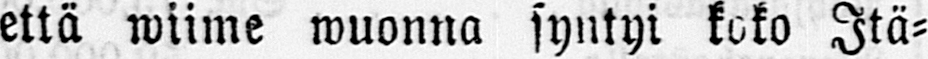että wiime wuonna syntyi koko Itä-
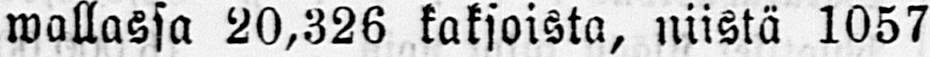wallassa 20,326 kakjoista, niistä 1057
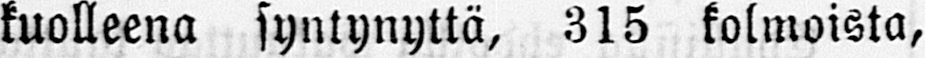kuolleena syntynyttä, 315 kolmoista,
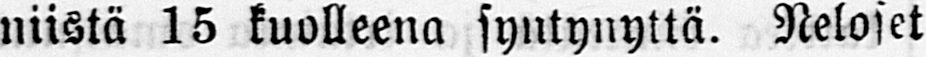niistä 15 kuolleena syntynyttä. Neloset
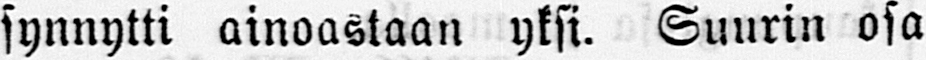synnytti ainoastaan yksi. Suurin osa
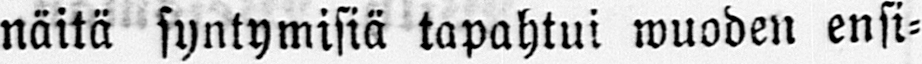näitä syntymisiä tapahtui wuoden ensi-
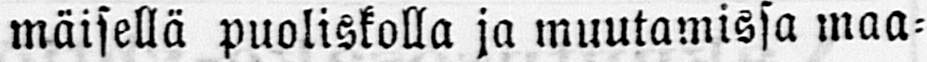mäisellä puoliskolla ja muutamissa maa-
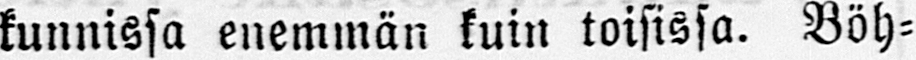kunnissa enemmän kuin toisissa. Böh-
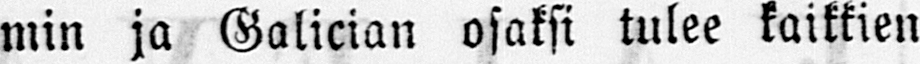min ja Galician osaksi tulee kaikkien
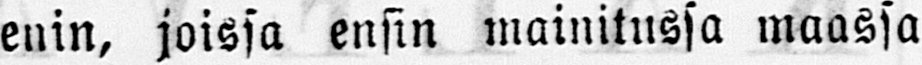enin, joissa ensin mainitussa maassa
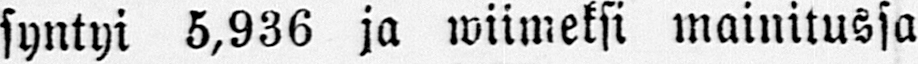syntyi 5,936 ja wiimeksi mainitussa
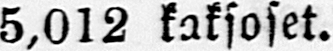5,012 kaksoset.
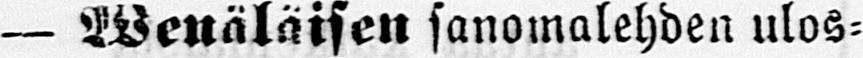— Wenäläisen sanomalehden ulos-
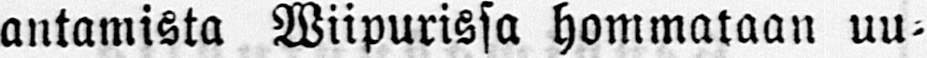antamista Wiipurissa hommataan uu-
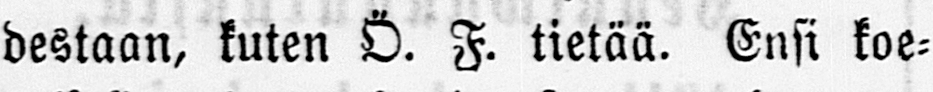destaan, kuten Ö. J. tietää. Ensi koe-
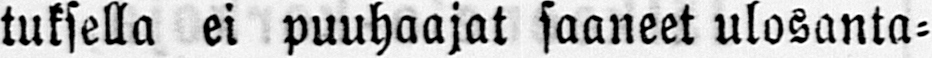tuksella ei puuhaajat saaneet ulosanta-
